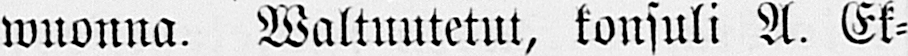wuonna. Waltuutetut, konsuli A. Ek-
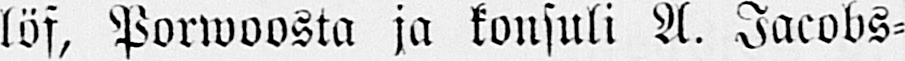löf, Porwoosta ja konsuli A. Jacobs-
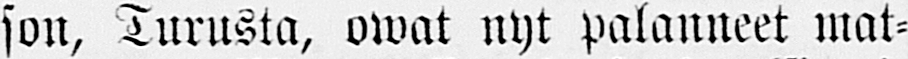son, Turusta, owat nyt palanneet mat-
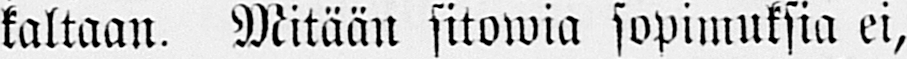kaltaan. Mitään sitowia sopimuksia ei,
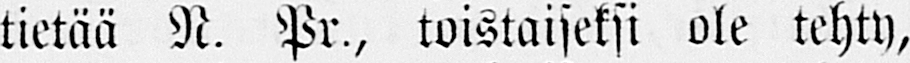tietää N. Pr., toistaiseksi ole tehty,
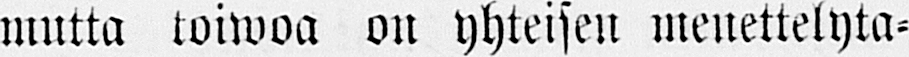mutta toiwoa on yhteisen menettelyta-
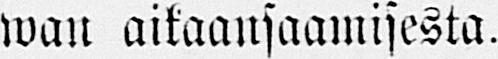wan aikaansaamisesta.
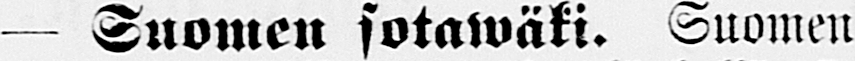— Suomen sotawäki. Suomen
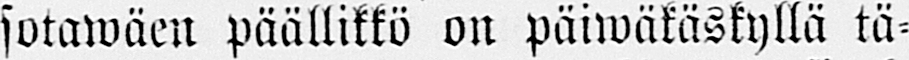sotawäen päällikkö on päiwäkäskyllä tä-
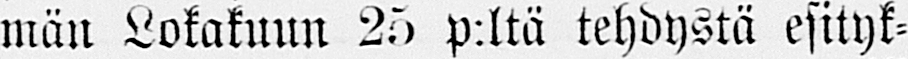män Lokakuun 23 p:ltä tehdystä esityk-
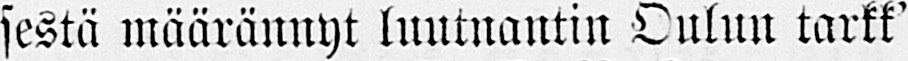sestä määrännyt luutnantin Oulun tarkk'
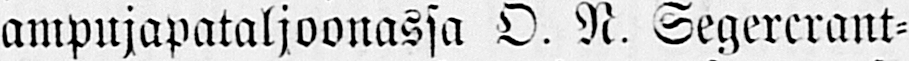ampujapataljoonassa O. N. Segererant-
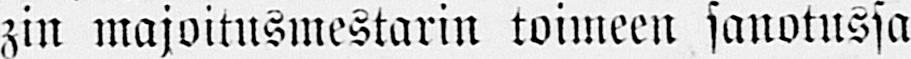zin majoitusmestarin toimeen sanotussa
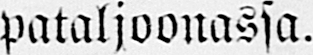pataljoonassa.
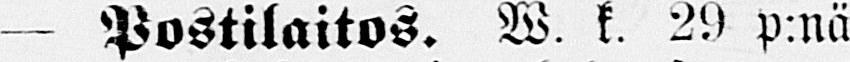— Postilaitos. W. k. 29 p:nä
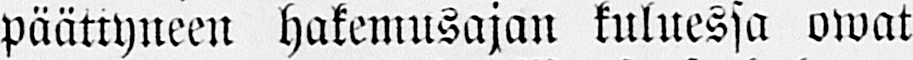päättyneen hakemusajan kuluessa owat
